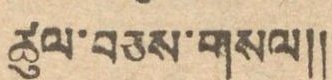ཚུལ་བཅས་གསལ།།
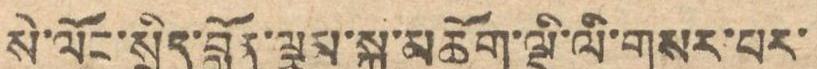སེ་ལོང་སྲིད་བློན་ལྕམ་སྐུ་མཆོག་ལྡི་ལི་གསར་པར་
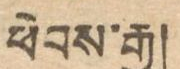ཕེབས་རྒྱུ།
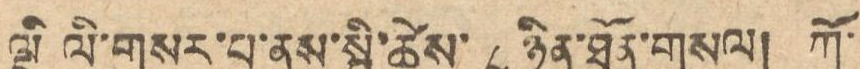ལྡི ལི་གསར་པ་ནས་སྤྱི་ཚེས་ ༨ ཉིན་ཐོན་གསལ། ཀོ་
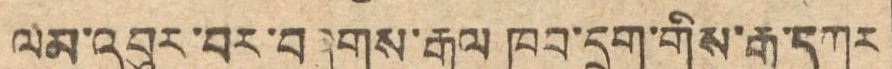ལམ་འབུར་བར་བཞུགས་རྒྱལ ཁབ་དྲུག་གིས་རྒྱ་དཀར
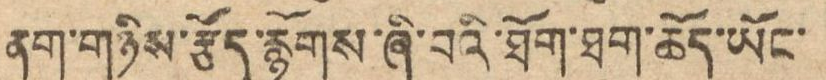ནག་གཉིས་རྩོད་རྙོགས་ཞི་བའི་ཐོག་ཐག་ཆོད་ཡོང་
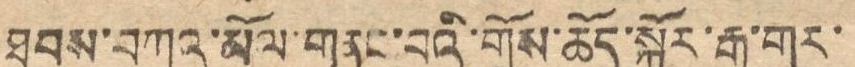ཐབས་བཀའ་མོལ་གནང་བའི་གྲོས་ཆོད་སྐོར་རྒྱ་གར་
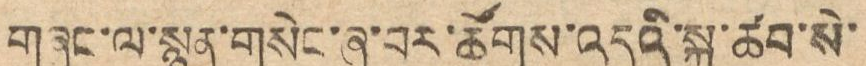གཞུང་ལ་སྙན་གསེང་ཞུ་བར་ཚོགས་འདུའི་སྐུ་ཚབ་སེ་
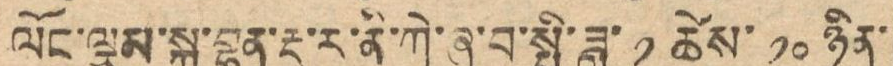ལོང་ལྕམ་སྐུ་བྷན་རྡ་ར་ནི་ཀེ་ཞུ་བ་སྤྱི་ཟླ་ ༡ ཚེས་ ༡༠ ཉིན་
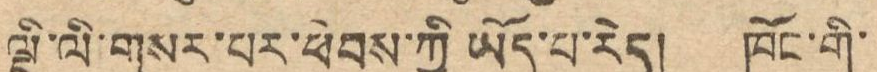ལྡི་ལི་གསར་པར་ཕེབས་ཀྱི ཡོད་པ་རེད། ཁོང་གི་
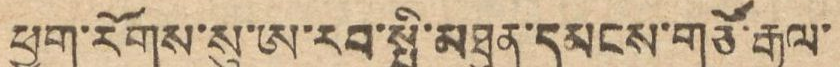ཕྱག་རོགས་སུ་ཨ་རབ་སྤྱི་མཐུན་དམངས་གཙོ་རྒྱལ་
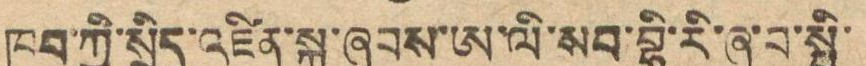ཁབ་ཀྱི་སྲིད་འཛིན་སྐུ་ཞབས་ཨ་ལི་སབ་བྷི་རི་ཞུ་བ་སྤྱི་
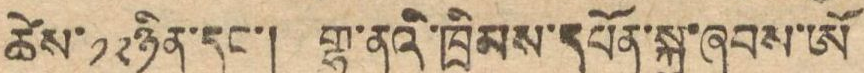ཚེས་༡༢ཉིན་དང་། གྷ་ནའི་ཁྲིམས་དཔོན་སྐུ་ཞབས་ཨོ་
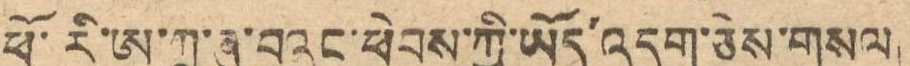ཕོ་རི་ཨ་ཀྲ་ཞུ་བའང་ཕེབས་ཀྱི་ཡོད་འདུག་ཅེས་གསལ།
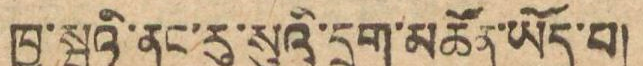ཁྱུ་སྦའི་ནང་རུ་སུའི་དྲག་མཚོན་ཡོད་པ།
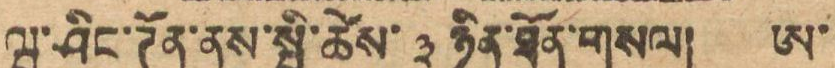ཝ་ཤིང་ཊོན་ནས་སྤྱི་ཚེས་ ༣ ཉིན་ཐོན་གསལ། ཨ་
